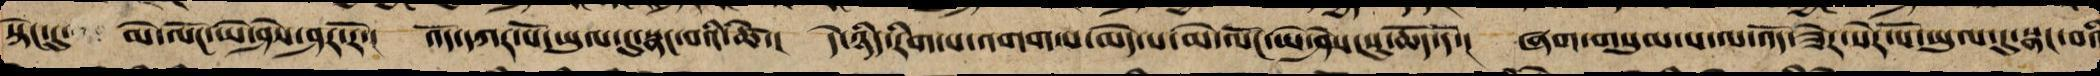སྟེང་དུ་ མེ་ལོང་ཡེ་ཤེས་ཤར་རོ་། འོད་དཀར་པོ་ཡུལ་དུ་སྣང་བའི་ཚེ་། དེ་ཉིད་རིག་པ་འགག་པ་མེད་པའི་མེ་ལོང་ཡེ་ཤེས་སུ་ཆོད་དོ་། ཞག་གསུམ་པ་ལ་འོད་ཟེར་སེར་པོ་ཡུལ་དུ་སྣང་བའི
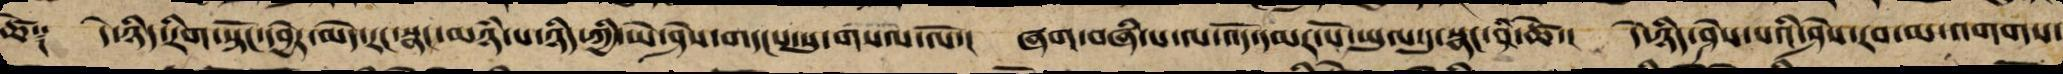ཚེ༑ དེ་ཉིད་རིག་སྟོང་དབྱེར་མེད་རང་སྣང་མཉཾ་པ་ཉིད་ཀྱི་ཡེ་ཤེས་གདངས་སུ་གསལ་ལོ་། ཞག་བཞི་པ་ལ་འོད་དམར་པོ་ཡུལ་དུ་སྣང་བའི་ཚེ་། དེ་ཉིད་ཤེས་པའི་ཤེས་རབ་མ་འགགས་
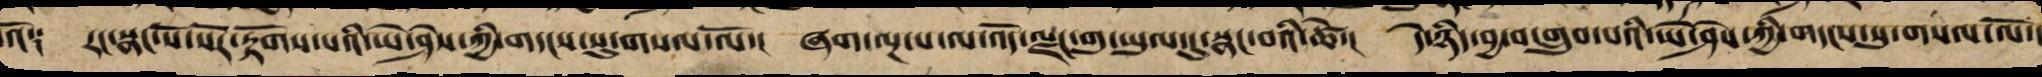འོ༑ རང་སྣང་སོ་སོར་རྟོགས་པའི་ཡེ་ཤེས་ཀྱི་གདངས་སུ་གསལ་ལོ་། ཞག་ལྔ་པ་ལ་འོད་ལྗང་གུ་ཡུལ་དུ་སྣང་བའི་ཚེ་། དེ་ཉིད་བྱ་བ་གྲུབ་པའི་ཡེ་ཤེས་ཀྱི་གདངས་སུ་གསལ་ལོ་།
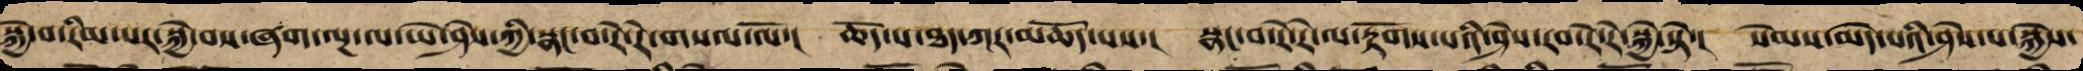སྐྱེ་བ་རིམ་པར་སྐྱེ་བས་ཞག་ལྔ་ལ་ཡེ་ཤེས་ཀྱི་སྣང་བ་རེ་རེ་གསལ་ལོ་། ཆོད་པ་ཐད་ཀར་མཆོད་པས་། སྣང་བ་རེ་རེ་ལ་རྟོགས་པའི་ཤེས་རབ་རེ་རེ་སྐྱེ་སྟེ་། སེམས་མེད་པའི་ཤེས་པ་སྐྱེས་
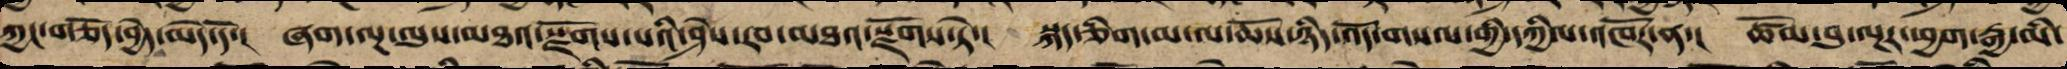ཀྱང་གཅོད་བྱེད་མེད་དོ་། ཞག་ལྔ་ལུས་མཐའ་སྫོགས་པའི་ཤེས་རབ་མཐའ་སྫོགས་ཏེ་། སྐད་ཅིག་མ་ལ་ཆོས་ཉིད་འོད་གསལ་གྱི་དཀྱིལ་འཁོར་ན་། ཚོམ་བུ་ལྔར་ཕྱག་རྒྱ་མི་
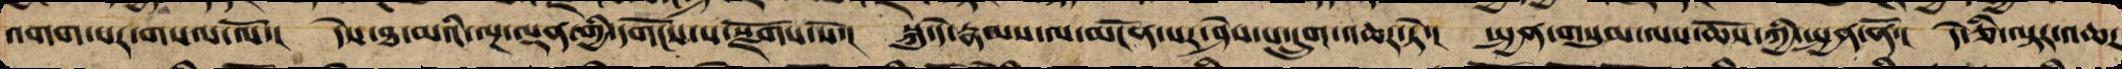འགག་པར་གསལ་ལོ་། དེས་ཐ་མའི་ལྔ་ལྡན་གྱི་དགོངས་པ་སྫོགས་སོ་། སྐུ་དེ་རྣམས་ལ་མངོན་པར་ཤེས་པ་དྲུག་འཆར་ཏེ་། སྤྱན་གསུམ་ལས་ཆོས་ཀྱི་སྤྱན་ནོ་། དེ་ཅི་ལྟར་འཆར
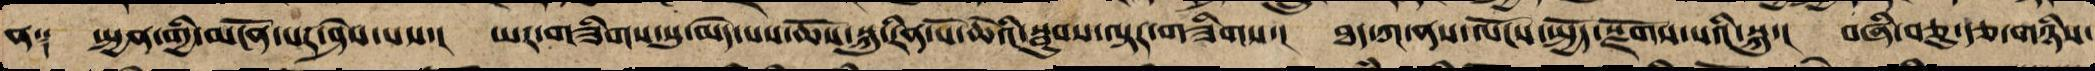ན༑ སྤྱན་གྱི་མངོན་པར་ཤེས་པས་། ཡར་གཟིགས་སུ་མེད་པ་ཆོས་སྐུ་རིན་པོ་ཆེའི་སྦུབས་ལྟར་གཟིགས་། ཐད་ཀ་ནས་ལོངས་སྤྱོད་སྫོགས་པའི་སྐུ་། བཞི་བཅུ་རྩ་གཉིས་
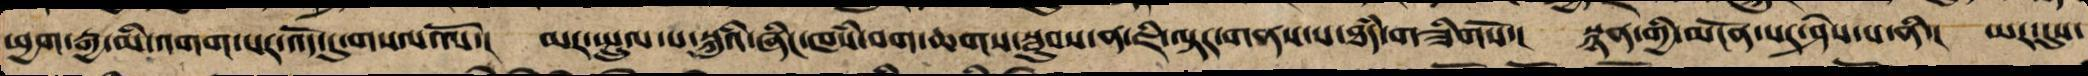ཕྱག་རྒྱ་མི་འགག་པར་འོད་དུ་གསལ་ལོ་། མར་སྤྲུལ་པ་སྐུའི་ཞིང་ཁཾས་བག་ཆགས་སྦུབས་ན་ཇི་ལྟར་གནས་པ་ཐཾད་གཟིགསོ་། སྙན་གྱི་མངོན་པར་ཤེས་པ་ནི་། ཡར་དུས་
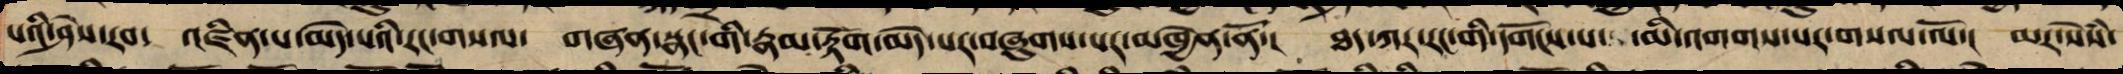པའི་ཤེས་རབ་ འཛིན་པ་མེད་པའི་རང་གསལ་ གཞན་སྣང་གི་རྣམ་རྟོག་མེད་པར་བཞུགས་པར་མཁྱེན་ནོ་། ཐད་ཀར་རང་གི་དགོངས་པ་ མི་འགགས་པར་གསལ་ལོ་། མར་སེཾས་
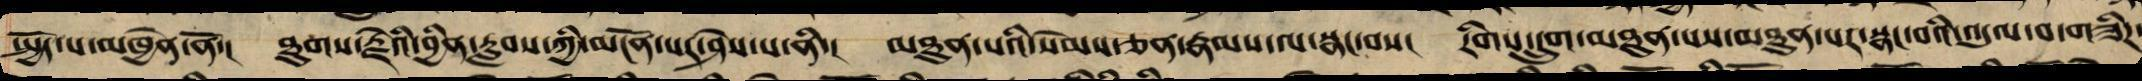སྤྱོད་པ་མཁྱེན་ནོ་། ཐུགས་རྗེའི་བྱིན་རླབས་ཀྱི་མངོན་པར་ཤེས་པ་ནི་། མཐུན་པའི་སེམས་ཅན་རྣམས་ལ་སྣང་བས། རིགས་དྲུག་མཐུན་པས་མཐུན་པར་སྣང་བའི་འདུལ་བ་གཟིཌ་
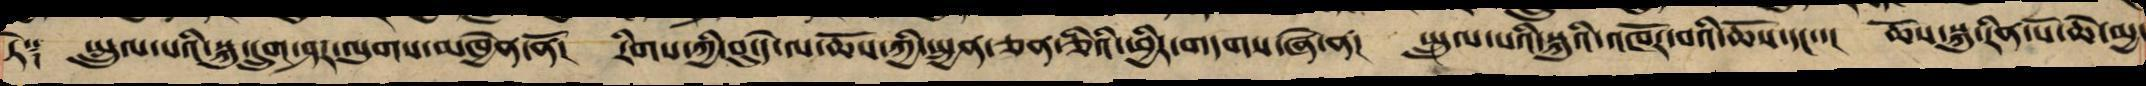ཏེ༑ སྤྲུལ་པའི་སྐུ་དྲུག་ཤར་ལུགས་མཁྱེན་ནོ་། རིགས་ཀྱི་བུ་དེ་ལ་ཆོས་ཀྱི་སྤྱན་ཅན་ཅིའི་ཕྱིར་གདགས་ཞེ་ན། སྤྲུལ་པའི་སྐུའི་འཁོར་བའི་ཆོས་དང་་། ཆོས་སྐུ་རིན་པོ་ཆེ་མྱ་
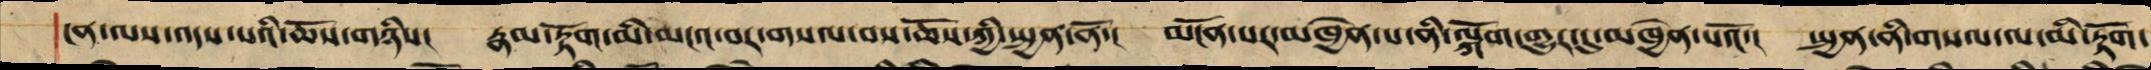ངན་ལས་འདས་པའི་ཆོས་གཉིས། རྣམ་རྟོག་མི་མངའ་བར་གསལ་བས་ཆོས་ཀྱི་སྤྱན་ནོ་། མངོན་པར་མཁྱེན་པ་ནི་ལྐོག་གྱུར་དུ་མཁྱེན་པའོ་། སྤྱན་ནི་གསལ་ལ་མི་རྟོག་
